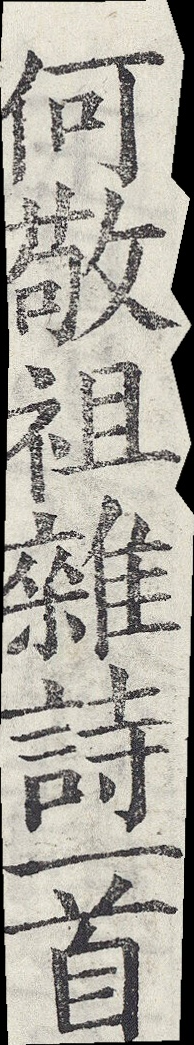何敬祖雜詩一首
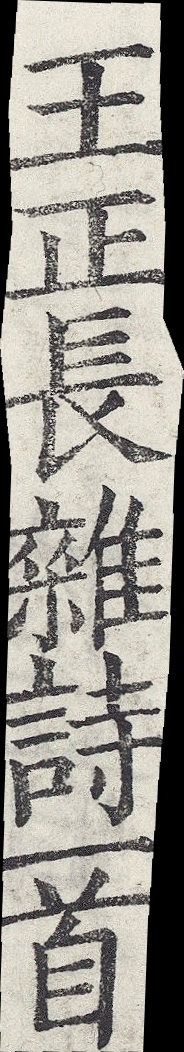王正長雜詩一首
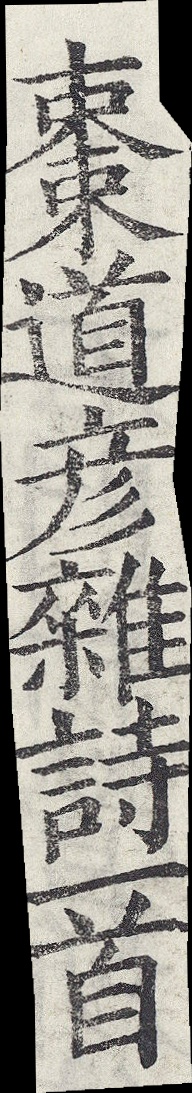棗道彥雜詩一首
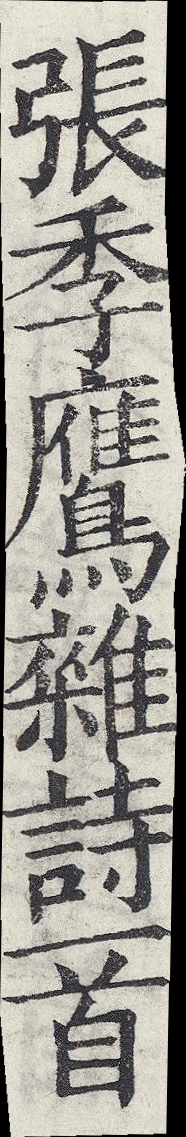張季鷹雜詩一首
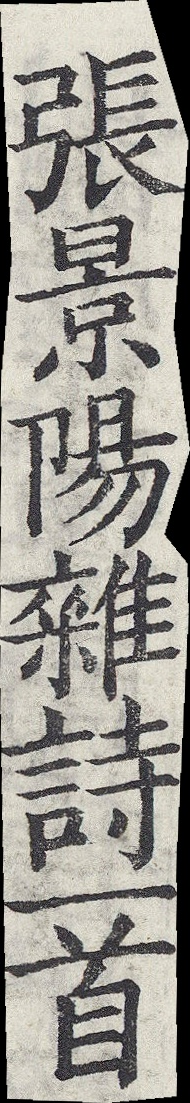張景陽雜詩一首
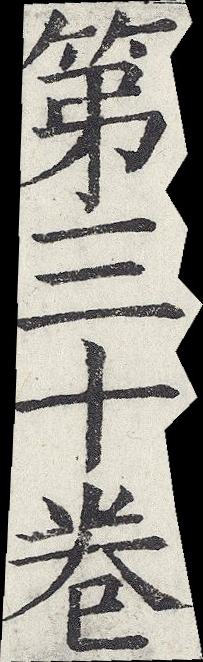第三十卷
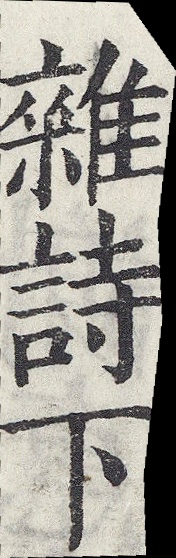雜詩下
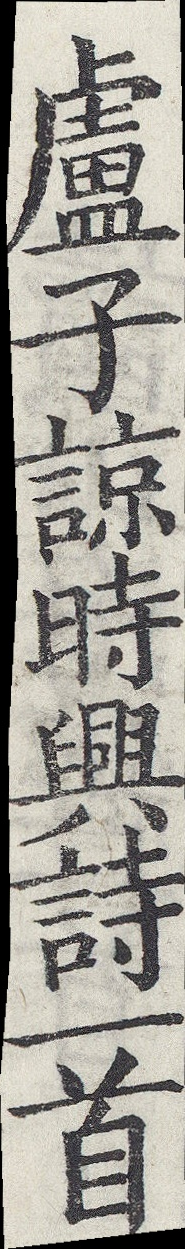盧子諒時興詩一首
